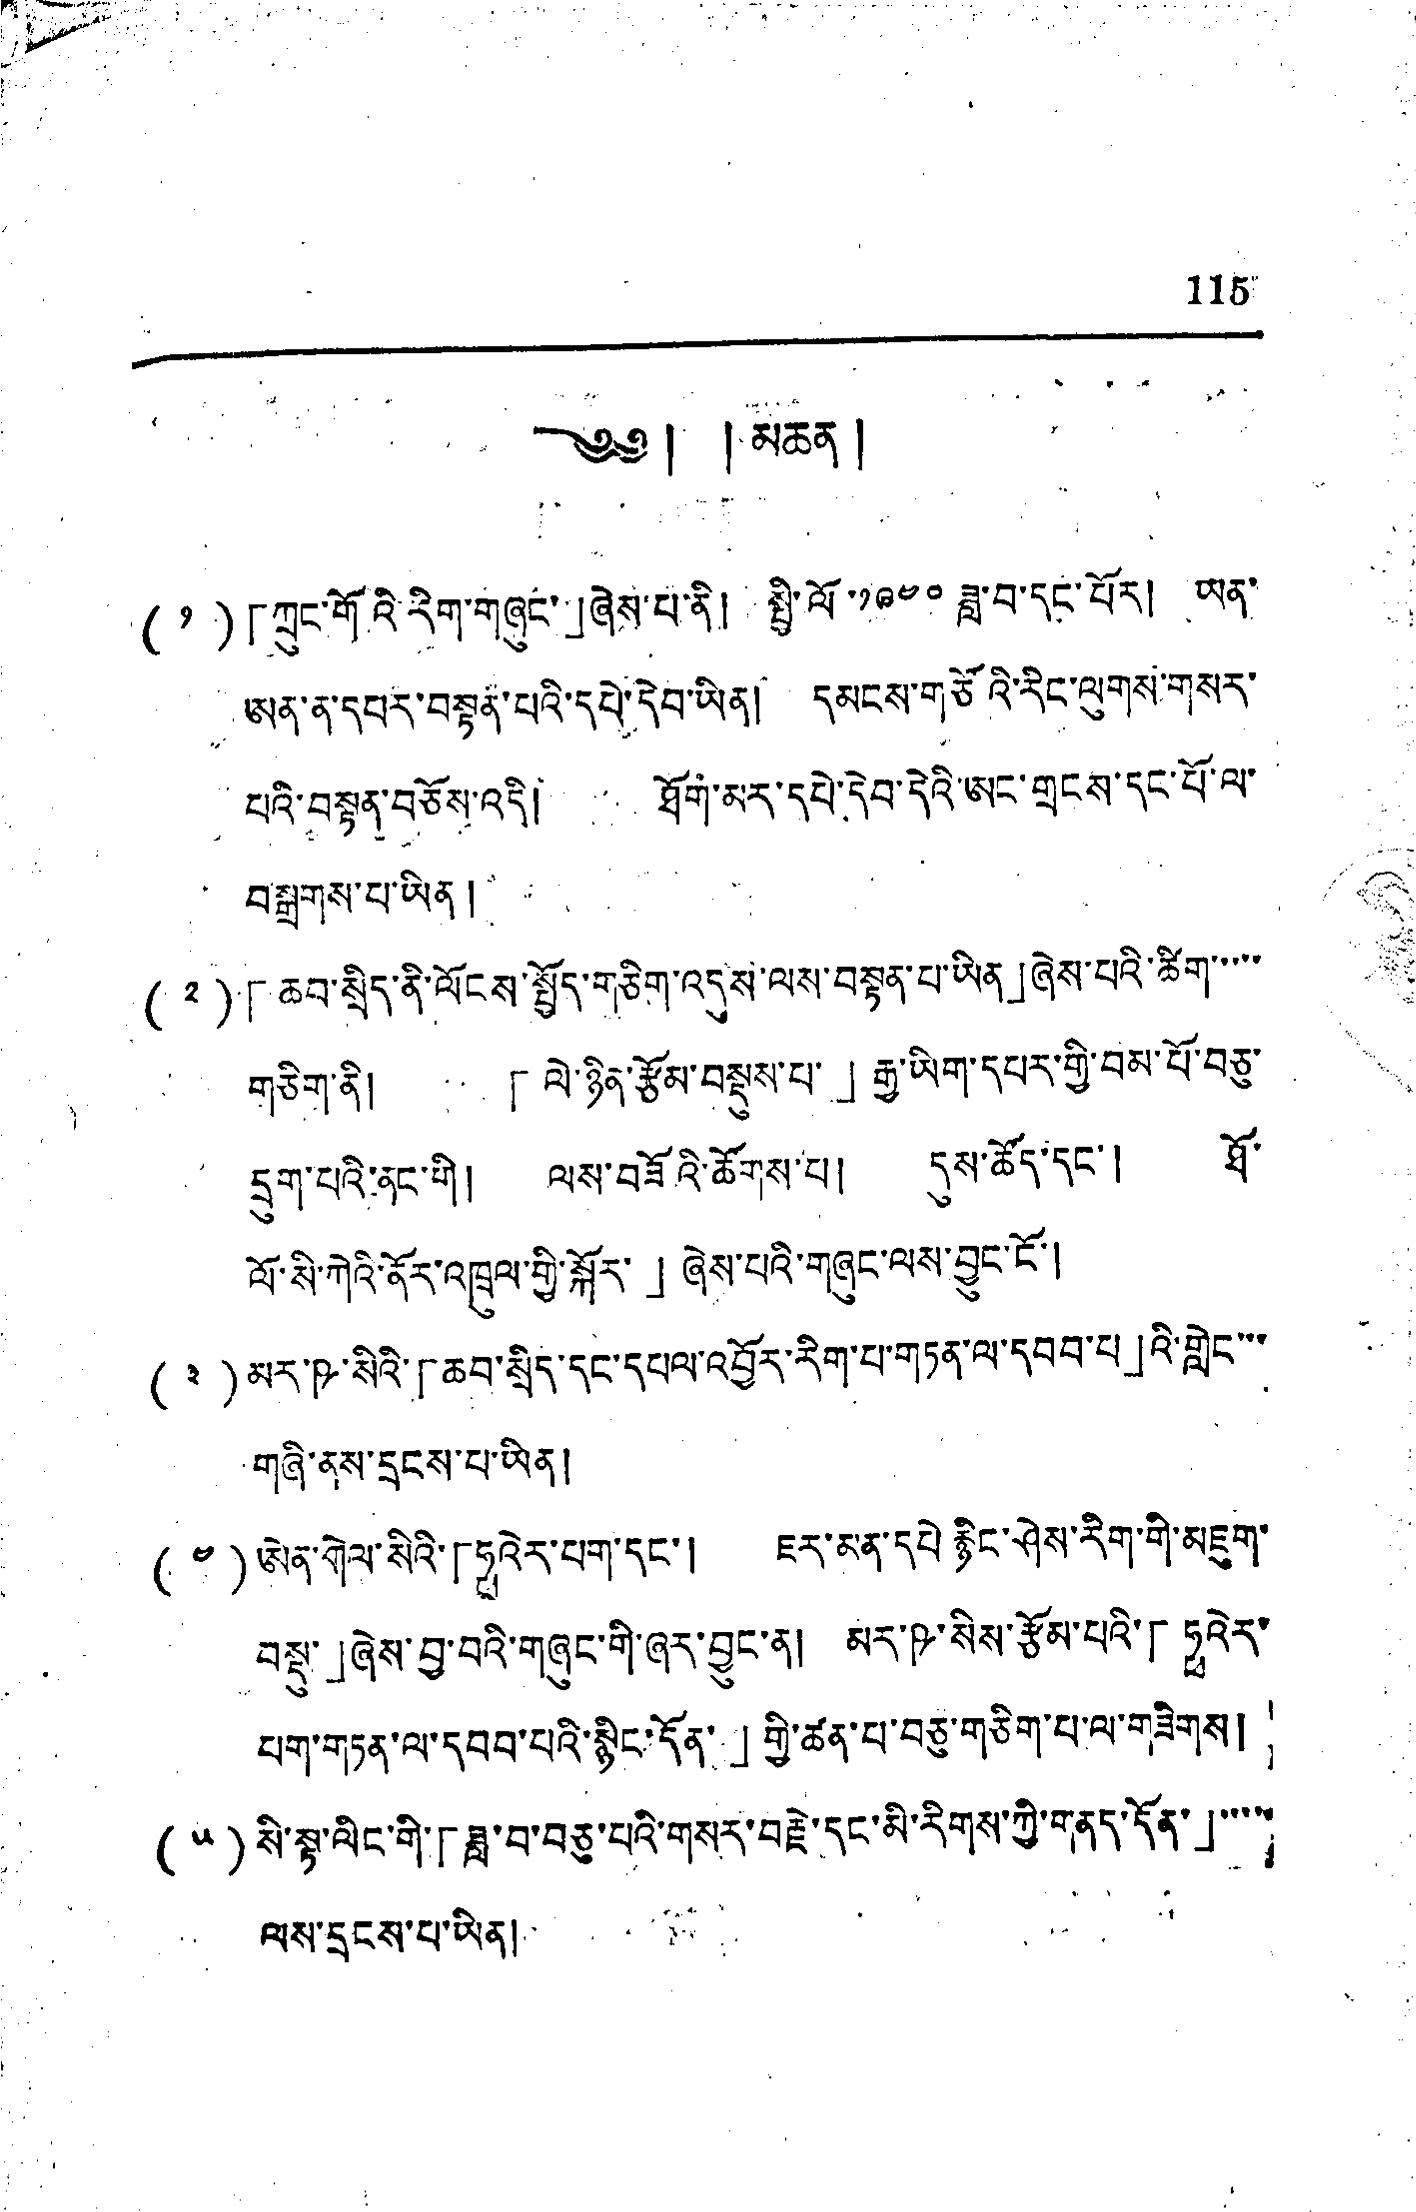115
༄༅། །མཆན།
(༡)「ཀྲུང་གོའི་རིག་གཞུང་」ཞེས་པ་ནི། སྤྱི་ལོ་༡༩༤༠ ཟླ་བ་དང་པོར། ཡན་
ཨན་ན་དཔར་བསྟན་པའི་དཔེ་དེབ་ཡིན། དམངས་གཅོའི་རིང་ལུགས་གསར་
པའི་བསྟན་བཅོས་འདི། ཐོག་མར་དཔེ་དེབ་དེའི་ཨང་གྲངས་དང་པོ་ལ་
བསྒྲགས་པ་ཡིན།
(༢)「ཆབ་སྲིད་ནི་ལོངས་སྤྱོད་གཅིག་འདུས་ལས་བསྟན་པ་ཡིན」ཞེས་པའི་ཚིག་་་་་
གཅིག་ནི། 「ལེ་ཉིན་རྩོམ་བསྡུས་པ་」རྒྱ་ཡིག་དཔར་གྱི་བམ་པོ་བཅུ་
དྲུག་པའི་ནང་གི། ལས་བཟོའི་ཆོགས་པ། དུས་ཚོད་དང་། ཐོ་
ལོ་སི་ཀེའི་ནོར་འཁྲུལ་གྱི་སྐོར་」ཞེས་པའི་གཞུང་ལས་བྱུང་ངོ་།
（༣）མར་ཥ་སིའི་「ཆབ་སྲིད་དང་དཔལ་འབྱོར་རིག་པ་གཏན་ལ་དབབ་པ」འི་གླེང་་་
གཞི་ནས་དྲངས་པ་ཡིན།
(༤)ཨེན་གེལ་སིའི་「ཧྥའེར་པག་དང་། ཇར་མན་དཔེ་རྙིང་ཤེས་རིག་གི་མཇུག་
བསྡུ་」ཞེས་བྱ་བའི་གཞུང་གི་ཞར་བྱུང་ན། མར་ཥ་སིས་རྩོམ་པའི་「ཧྥའེར་
པག་གཏན་ལ་དབབ་པའི་སྙིང་དོན་」གྱི་ཚན་པ་བཅུ་གཅིག་པ་ལ་གཟིགས།
(༥)སི་སྟ་ལིང་གི་「ཟླ་བ་བཅུ་པའི་གསར་བརྗེ་དང་མི་རིགས་ཀྱི་གནད་དོན་」་་་་་
ལས་དྲངས་པ་ཡིན།
